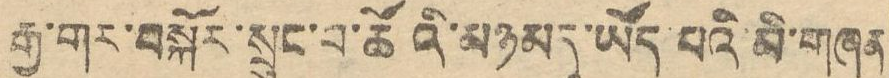རྒྱ་གར་བསྐོར་སྲུང་བ་ཚོའི་མཉམདུ་ཡོད་པའི་མི་གཞན
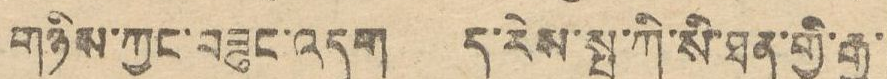གཉིས་ཀྱང་བཟུང་འདུག ད་རེས་སྤ་ཀི་སི་ཐན་གྱི་རྒྱ་
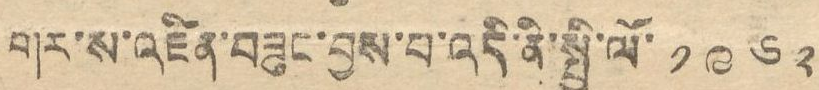གར་ས་འཛིན་བཟུང་བྱས་པ་འདི་ནི་སྤྱི་ལོ་ ༡༩༦༢
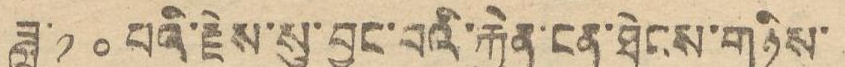ཟླ་ ༡༠ པའི་རྗེས་སུ་བྱུང་བའི་རྐྱེན་ངན་ཐེངས་གཉིས་
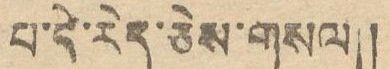པ་དེ་རེད་ཅེས་གསལ།།
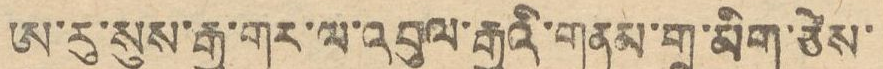ཨུ་རུ་སུས་རྒྱ་གར་ལ་འབུལ་རྒྱུའི་གནམ་གྲུ་མིག་ཅེས་
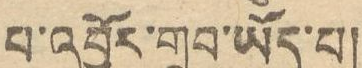པ་འབྱོར་གྲབ་ཡོད་པ།
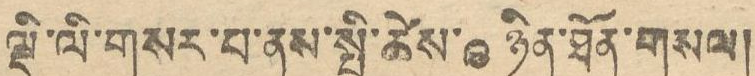ལྡི་ལི་གསར་པ་ནས་སྤྱི་ཚེས་ ༩ ཉིན་ཐོན་གསལ།
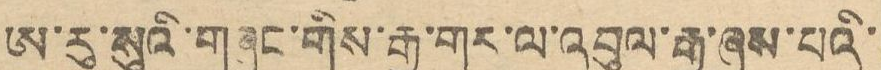ཨུ་རུ་སུའི་གཞུང་གིས་རྒྱ་གར་ལ་འབུལ་རྒྱུ་ཞུས་པའི་
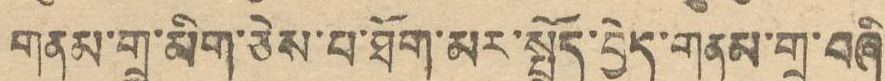གནམ་གྲུ་མིག་ཅེས་པ་ཐོག་མར་སྤྲོད་བྱེད་གནམ་གྲུ་བཞི
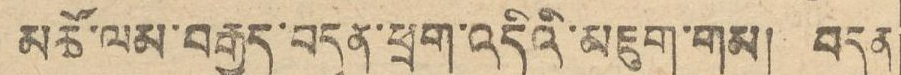མཚོ་ལམ་བརྒྱུད་བདུན་ཕྲག་འདིའི་མཇུག་གམ། བདུན
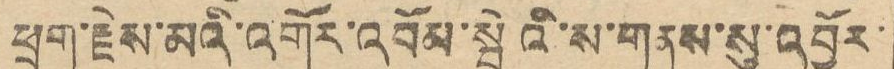ཕྲག་རྗེས་མའི་འགོར་འབོམ་སྦེའི་ས་གནས་སུ་འབྱོར་
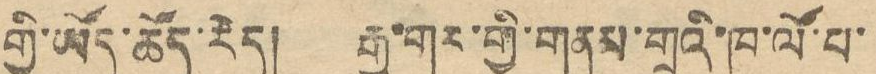གྱི་ཡོད་ཚོད་རེད། རྒྱ་གར་གྱི་གནམ་གྲུའི་ཁ་ལོ་པ་
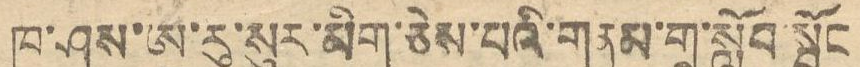ཁ་ཤས་ཨུ་རུ་སུར་མིག་ཅེས་པའི་གནམ་གྲུ་སློབ་སྦྱོང
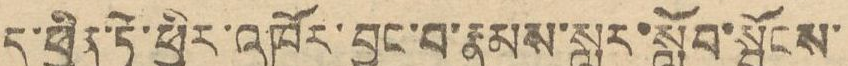དུ་ཕྱིན་ཏེ་ཕྱིར་འཁོར་བྱུང་བ་རྣམས་སླར་སློབ་སྦྱོངས་
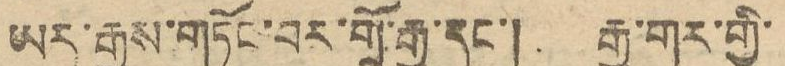ཡར་རྒྱས་གཏོང་བར་གྲོ་རྒྱུ་དང་། རྒྱ་གར་གྱི་
